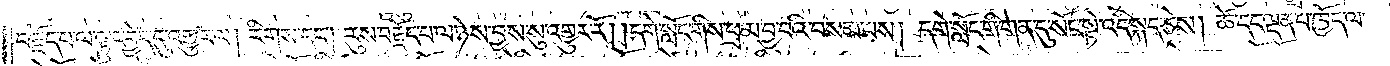བརྗོད་པ་ལ་ལྟུང་བྱེད་དུ་འགྱུར་ལ། རིགས་དང༌། རུས་བརྗོད་པ་ལ་ཉེས་བྱས་སུ་འགྱུར་རོ། །དགེ་སློང་གིས་ཕྲ་མ་བྱ་བའི་བསམ་པས། དགེ་སློང་གི་གན་དུ་སོང་སྟེ་འདི་སྐད་ཅེས། ཚེ་དང་ལྡན་པ་ཁྱོད་ལ་
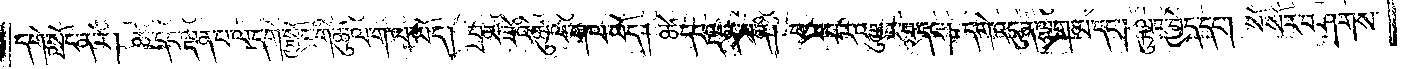དགེ་སློང་ན་རེ། ཚེ་དང་ལྡན་པ་ལ་དགེ་སྦྱོང་གི་ཚུལ་ག་ལ་ཡོད། བྲམ་ཟེའི་ཚུལ་ག་ལ་ཡོད། ཚེ་དང་ལྡན་པ་ནི། ཕམ་པར་འགྱུར་བ་དང༌། དགེ་འདུན་ལྷག་མ་དང༌། ལྟུང་བྱེད་དང༌། སོ་སོར་བཤགས་
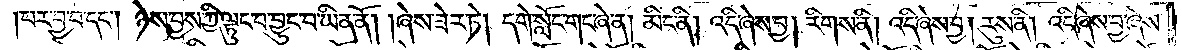པར་བྱ་བ་དང༌། ཉེས་བྱས་ཀྱི་ལྟུང་བ་བྱུང་བ་ཡིན་ནོ། །ཞེས་ཟེར་ཏེ། དགེ་སློང་གང་ཞེ་ན། མིང་ནི། འདི་ཞེས་བྱ། རིགས་ནི། འདི་ཞེས་བྱ། རུས་ནི། འདི་ཞེས་བྱ་ཞེས་
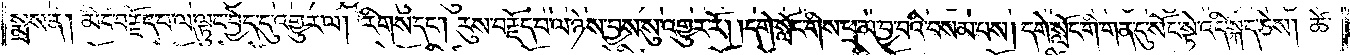སྨྲས་ན། མིང་བརྗོད་པ་ལ་ལྟུང་བྱེད་དུ་འགྱུར་ལ། རིགས་དང༌། རུས་བརྗོད་པ་ལ་ཉེས་བྱས་སུ་འགྱུར་རོ། །དགེ་སློང་གིས་ཕྲ་མ་བྱ་བའི་བསམ་པས། དགེ་སློང་གི་གན་དུ་སོང་སྟེ་འདི་སྐད་ཅེས། ཚེ་
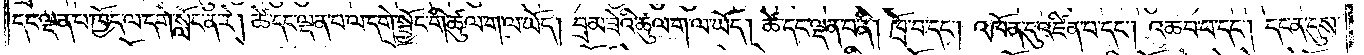དང་ལྡན་པ་ཁྱོད་ལ་དགེ་སློང་ན་རེ། ཚེ་དང་ལྡན་པ་ལ་དགེ་སྦྱོང་གི་ཚུལ་ག་ལ་ཡོད། བྲམ་ཟེའི་ཚུལ་ག་ལ་ཡོད། ཚེ་དང་ལྡན་པ་ནི། ཁྲོ་བ་དང༌། འཁོན་དུ་འཛིན་པ་དང༌། འཆབ་པ་དང༌། དངན་དུས་
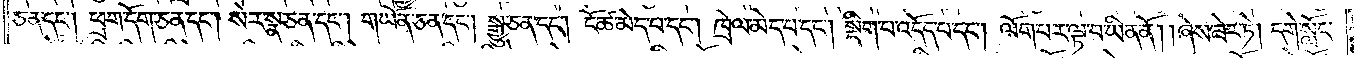ཅན་དང༌། ཕྲག་དོག་ཅན་དང༌། སེར་སྣ་ཅན་དང༌། གཡོན་ཅན་དང༌། སྒྱུ་ཅན་དང༌། ངོ་ཚ་མེད་པ་དང༌། ཁྲེལ་མེད་པ་དང༌། སྡིག་པ་འདོད་པ་དང༌། ལོག་པར་ལྟ་བ་ཡིན་ནོ། །ཞེས་ཟེར་ཏེ། དགེ་སློང་
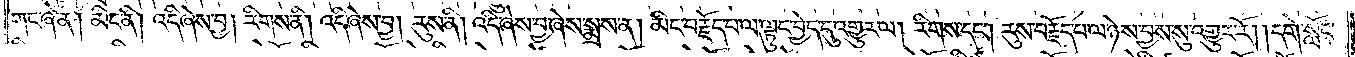གང་ཞེ་ན། མིང་ནི། འདི་ཞེས་བྱ། རིགས་ནི། འདི་ཞེས་བྱ། རུས་ནི། འདི་ཞེས་བྱ་ཞེས་སྨྲས་ན། མིང་བརྗོད་པ་ལ་ལྟུང་བྱེད་དུ་འགྱུར་ལ། རིགས་དང༌། རུས་བརྗོད་པ་ལ་ཉེས་བྱས་སུ་འགྱུར་རོ། །དགེ་སློང་
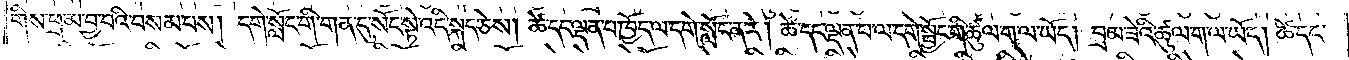གིས་ཕྲ་མ་བྱ་བའི་བསམ་པས། དགེ་སློང་གི་གན་དུ་སོང་སྟེ་འདི་སྐད་ཅེས། ཚེ་དང་ལྡན་པ་ཁྱོད་ལ་དགེ་སློང་ན་རེ། ཚེ་དང་ལྡན་པ་ལ་དགེ་སྦྱོང་གི་ཚུལ་ག་ལ་ཡོད། བྲམ་ཟེའི་ཚུལ་ག་ལ་ཡོད། ཚེ་དང་
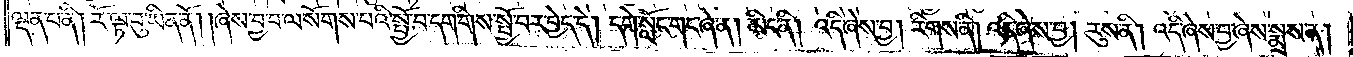ལྡན་པ་ནི། རོ་ལྟ་བུ་ཡིན་ནོ། །ཞེས་བྱ་བ་ལ་སོགས་པའི་སྤྱོ་བ་དག་གིས་སྤྱོ་བར་བྱེད་དེ། དགེ་སློང་གང་ཞེ་ན། མིང་ནི། འདི་ཞེས་བྱ། རིགས་ནི། འདི་ཞེས་བྱ། རུས་ནི། འདི་ཞེས་བྱ་ཞེས་སྨྲས་ན།
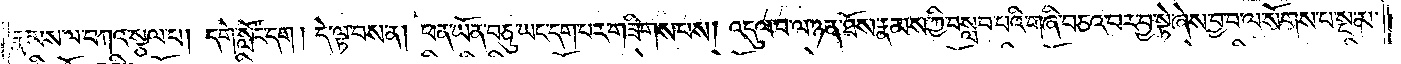རྣམས་ལ་བཀའ་སྩལ་པ། དགེ་སློང་དག །དེ་ལྟ་བས་ན། ཕན་ཡོན་བཅུ་ཡང་དག་པར་གཟིགས་པས། འདུལ་བ་ལ་ཉན་ཐོས་རྣམས་ཀྱི་བསླབ་པའི་གཞི་བཅའ་བར་བྱ་སྟེ་ཞེས་བྱ་བ་ལ་སོགས་པ་སྔ་མ་
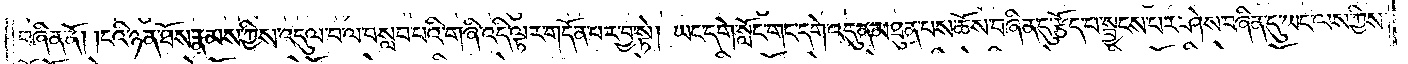བཞིན་ནོ། །ངའི་ཉན་ཐོས་རྣམས་ཀྱིས་འདུལ་བ་ལ་བསླབ་པའི་གཞི་འདི་ལྟར་གདོན་པར་བྱ་སྟེ། ཡང་དགེ་སློང་གང་དགེ་འདུན་མཐུན་པས་ཆོས་བཞིན་དུ་རྩོད་པ་སྦྱངས་པར་ཤེས་བཞིན་དུ་ཡང་ལས་ཀྱིས་
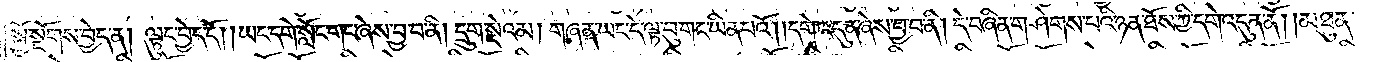སྐྱོ་སྔོགས་བྱེད་ན། ལྟུང་བྱེད་དོ། །ཡང་དགེ་སློང་གང་ཞེས་བྱ་བ་ནི། དྲུག་སྡེའམ། གཞན་ཡང་དེ་ལྟ་བུ་གང་ཡིན་པའོ། །དགེ་འདུན་ཞེས་བྱ་བ་ནི། དེ་བཞིན་གཤེགས་པའི་ཉན་ཐོས་ཀྱི་དགེ་འདུན་ནོ། མཐུན་
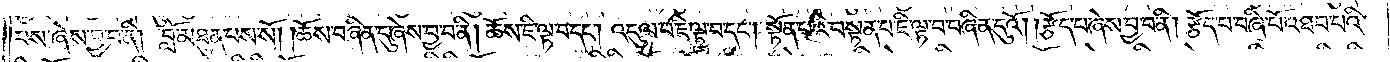པས་ཞེས་བྱ་བ་ནི། བློ་མཐུན་པས་སོ། །ཆོས་བཞིན་དུ་ཞེས་བྱ་བ་ནི། ཆོས་ཇི་ལྟ་བ་དང༌། འདུལ་བ་ཇི་ལྟ་བ་དང༌། སྟོན་པའི་བསྟན་པ་ཇི་ལྟ་བ་བཞིན་དུའོ། །རྩོད་པ་ཞེས་བྱ་བ་ནི། རྩོད་པ་བཞི་པོ་འཐབ་པའི་
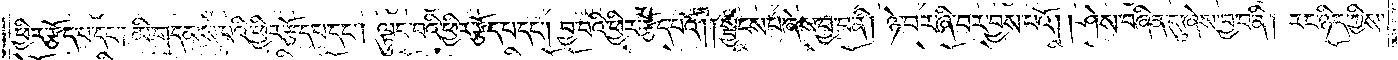ཕྱིར་རྩོད་པ་དང༌། མི་གདམས་པའི་ཕྱིར་རྩོད་པ་དང༌། ལྟུང་བའི་ཕྱིར་རྩོད་པ་དང༌། བྱ་བའི་ཕྱིར་རྩོད་པའོ། །སྦྱངས་པ་ཞེས་བྱ་བ་ནི། ཉེ་བར་ཞི་བར་བྱས་པའོ། །ཤེས་བཞིན་དུ་ཞེས་བྱ་བ་ནི། རང་ཉིད་ཀྱིས་
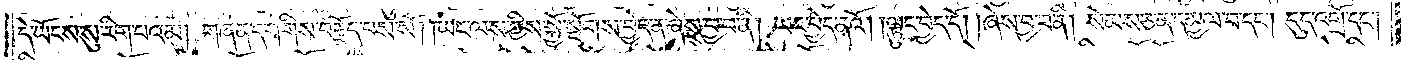དེ་ཡོངས་སུ་རིག་པའམ། གཞན་དག་གིས་བརྗོད་པས་སོ། །ཡང་ལས་ཀྱིས་སྐྱོ་སྔོགས་བྱེད་ན་ཞེས་བྱ་བ་ནི། ཡང་བྱེད་ནའོ། །ལྟུང་བྱེད་དོ། །ཞེས་བྱ་བ་ནི། སེམས་ཅན་དམྱལ་བ་དང༌། དུད་འགྲོ་དང༌།
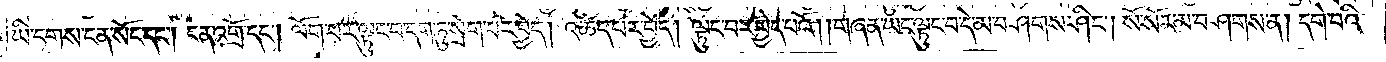ཡི་དྭགས་ངན་སོང་དང༌། ངན་འགྲོ་དང༌། ལོག་པར་ལྟུང་བ་དག་ཏུ་སྲེག་པར་བྱེད། འཚོད་པར་བྱེད། ལྟུང་བར་བྱེད་པའོ། །གཞན་ཡང་ལྟུང་བ་དེ་མ་བཤགས་ཤིང༌། སོ་སོར་མ་བཤགས་ན། དགེ་བའི་
